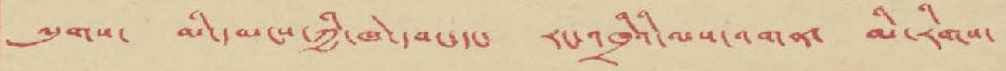ལུགས་ མི་དམངས་ཀྱི་ཁེ་དབང་དང་ རང་འཁྲིའི་ལས་འགན་ མི་རིགས་
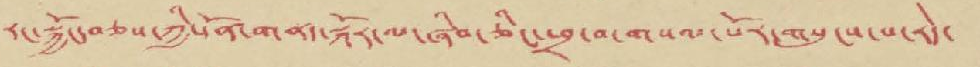རང་སྐྱོང་བཅས་ཀྱི་དོན་གནད་སྐོར་ལ་ཞིབ་ཅིང་ཕྲ་བ་གསལ་པོར་གསུངས་པ་རེད་
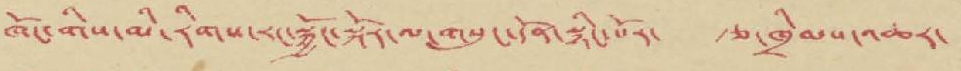ཁོང་གིས་མི་རིགས་རང་སྐྱོང་སྐོར་ལ་གསུང་དོན་སྙིང་པོར་ རྩ་ཁྲིམས་འཆར་
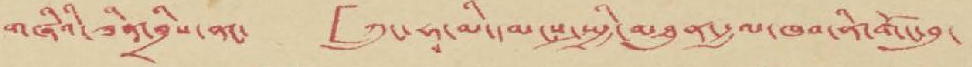གཞིའི་ཟིན་བྲིས་ནང་ 「ཀྲུང་ཧྭ་མི་དམངས་སྤྱི་མཐུན་རྒྱལ་ཁབ་ནི་གོང་བུ་
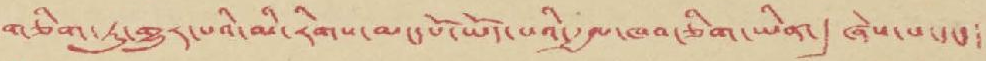གཅིག་ཏུ་གྱུར་པའི་མི་རིགས་མང་པོ་ཡོད་པའི་རྒྱལ་ཁབ་ཅིག་ཡིན་」ཞེས་པ་དང་།
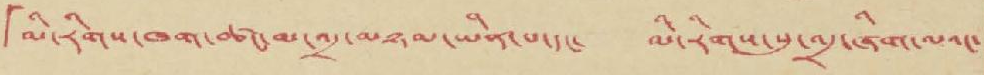「མི་རིགས་ཁག་ཚང་མ་འདྲ་མཉམ་ཡིན་པ་དང་ མི་རིགས་སུ་འདྲ་ཞིག་ལའང་
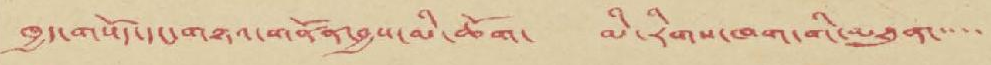ཁྱད་གསོད་དང་གཉའ་གནོན་བྱས་མི་ཆོག་ མི་རིགས་ཁག་གི་མཐུན་་་་་
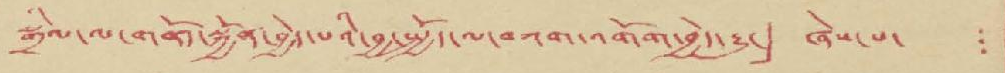སྒྲིལ་ལ་གནོད་སྐྱོན་བྱེད་པའི་བྱ་སྤྱོད་ལ་བཀག་འགོག་བྱེད་རྒྱུ་」ཞེས་པ་
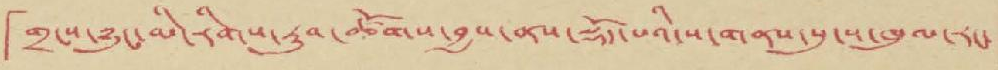「གྲངས་ཉུང་མི་རིགས་རུབ་ཚོགས་བྱས་ནས་སྡོད་སའི་ས་གནས་སུ་ས་ཁུལ་རང་
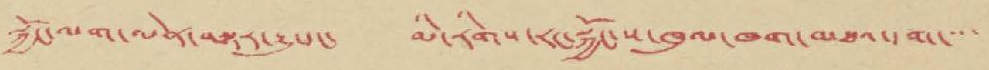སྐྱོང་ལག་ལེན་བསྟར་རྒྱུ་དང་ མི་རིགས་རང་སྐྱོང་ས་ཁུལ་ཁག་མཐའ་དག་་་་
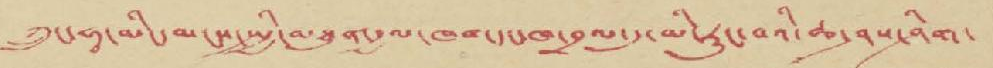ཀྲུང་ཧྭ་མི་དམངས་སྤྱི་མཐུན་རྒྱལ་ཁབ་དང་ཁ་བྲལ་དུ་མི་རུང་བའི་ཆ་ཤས་ཤིག་
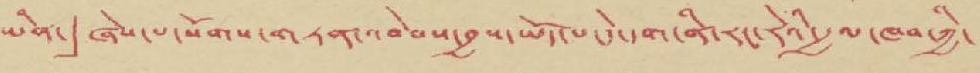ཡིན་」ཞེས་པ་སོགས་གཏན་འབེབས་བྱས་ཡོད་པ་དེ་དག་ནི་རང་རེའི་རྒྱལ་ཁབ་ཀྱི་
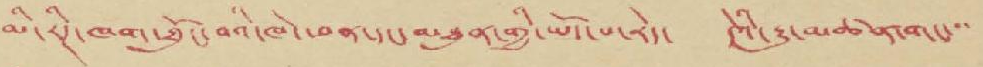མི་རིཊ་ཁག་ཐོུང་བའི་ཁེ་ཕན་དང་མཐུན་གྱི་ཡོད་པ་རེད་ དེའི་རྒྱུ་མཚན་གང་་་
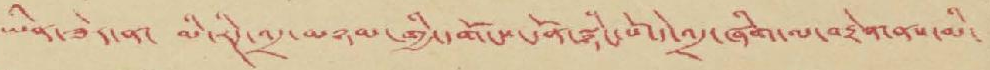ཡིན་ཟེར་ན་ མི་རིཊ་འདྲ་མཉམ་གྱི་དགོངས་དོན་སྙིང་པོ་དེ་འདྲ་ཞིག་ལ་བརྟེན་ནས་མི་
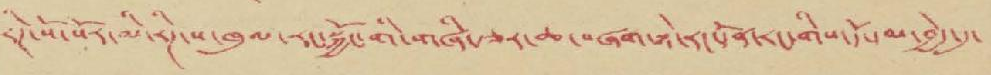རིཊ་སོ་སོར་མི་རིཊ་ས་ཁུལ་རང་སྐྱོང་གི་གཞི་རྩར་ཆ་བཞག་སྟེ་ནང་དོན་རང་གིས་དོ་དམ་བྱེད་དུ་
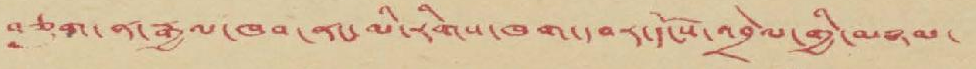བཅུག་ན་རྒྱལ་ཁབ་ནང་མི་རིགས་ཁག་དབར་དངོས་འབྲེལ་གྱི་མཉམ་
